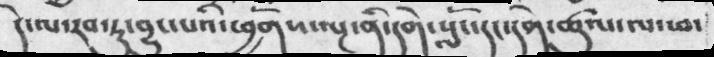དེ་ལ་རབ་ཏུ་བྱུང་པའི་ཕྱོགས་ལྔ་ནི་དགེ་སློང་དང་དགེ་ཚུལ་ལ་ཕ་
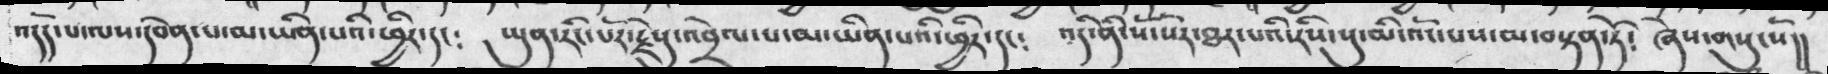འདོད་པ་ལས་དབེན་པ་མ་ཡིན་པའི་ཕྱིར་དང༴   ཡུན་རིང་པོར་རྗེསུ་འབྲེལ་པ་མ་ཡིན་པའི་ཕྱིར་དང༴  འདི་ནི་སོ་སོར་ཐར་པའི་རིས་སུ་མི་འོང་པས་མ་བསྟན་ཏོ༴  ཞེས་གསུངསོ།།
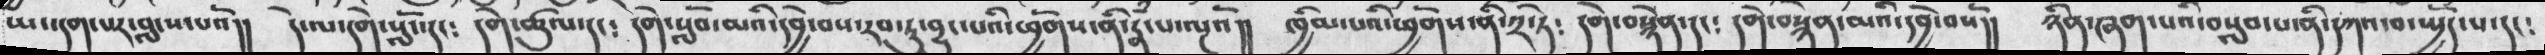ཡང་དག་པར་བླངས་པའོ།། དེ་ལ་དགེ་སློང་དང༴ དགེ་ཚུལ་དང༴ དགེ་སློབ་མའི་དབྱེ་བས་རབ་ཏུ་བྱུང་པའི་ཕྱོགས་ནི་རྣཾ་པ་ལྔའོ།། ཁྱིམ་པའི་ཕྱོགས་ནི་༢་ཏེ༴ དགེ་བསྙེན་དང༴ དགེ་བསྙེན་མའི་དབྱེ་བསོ།། ཉིན་ཞག་པའི་བསླབ་པ་ནི་དཀའ་བ་སྤྱོད་པ་དང༴
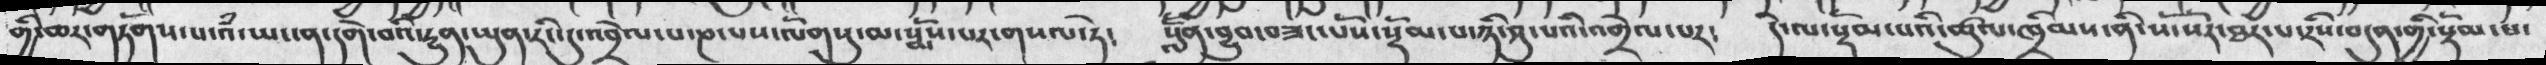གྱི་ཆར་གཏོགས་པ་འཾ་ཡང་ན་དགེ་བའི་རྱུན་ཡུན་རིང་དུ་འབྲེལ་པ་ཎ་པས་ལོགསུ་མ་སྨོས་པར་གསལ་ཏེ༴ སླཽན་བྱུབ་བཟང་པོས་སྡོམ་པ་ཉི་ཤུ་པའི་འགྲེལ་པར༴ དེ་ལསྡོམ་པའི་ཚུལ་ཁྲིམས་ནི་སོ་སོར་ཐར་པ་རིས་བདུན་གྱི་སྡོམ་པ་
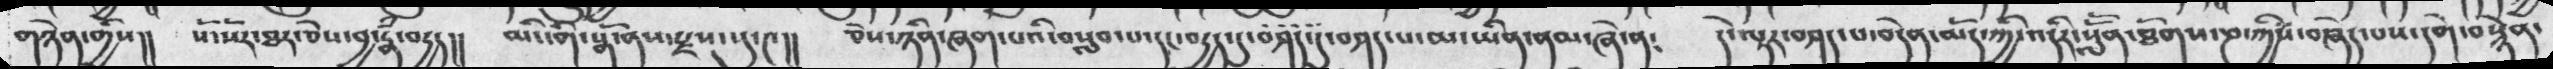གཉེན་གྱིས།། སོ་སོར་ཐར་ཅེས་བྱ་རྣཾ་བདྱད།། མིང་གི་སྒོ་ནས་སྫས་སུ་༤།། ཅེས་ཉིན་ཞག་པའི་བསླབ་པ་དང་བདྱད་དུ་བཤད་པ་མ་ཡིན་ནམ་ཞེ་ན༴ དེ་ལྟར་བཤད་པ་བདེན་མོད་ཀྱི་འདིར་སློོན་ཐོགས་ཎ་ཀྱིས་བཞེད་པས་དགེ་བསྙེན་
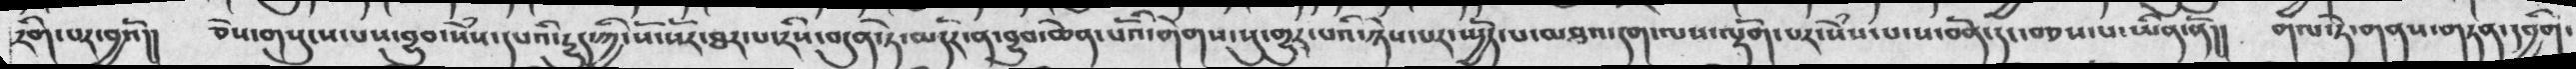རིག་པར་བྱའོ།།  ཅེས་གསུངས་པས་བྱུབ་སེཾས་དཔའི་རྱུད་ཀྱི་སོ་སོར་ཐར་པ་རིས་བདུན་ཏེ་མདོར་ན་བྱུབ་ཆེན་པོའི་གེགས་སུ་གྱུར་པའི་ཉེས་པར་སྤྱོད་པ་མཐའ་དག་ལས་ལྡོག་པར་སེཾས་པ་ས་བོན་དང་བཅས་པ་ཡིན་ནོ།།  གལ་ཏེ་གནས་གཏན་དབྱིག་
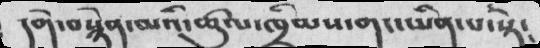དགེ་བསྙེན་མའི་ཚུལ་ཁྲིམས་གང་ཡིན་པ་སྟེ༴
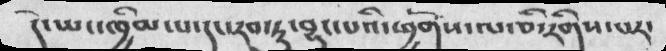དེ་ཡང་ཁྱིམ་པ་དང་རབ་ཏུ་བྱུང་པའི་ཕྱོགས་ལ་ཅི་རིགས་པར་
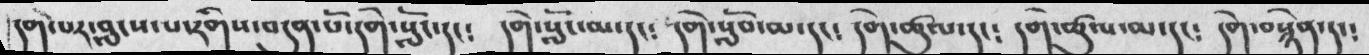དག་པར་བླངས་པ་རིགས་བདུན་པོ་དགེ་སློང་དང༴ དགེ་སློང་མ་དང༴ དགེ་སློབ་མ་དང༴ དགེ་ཚུལ་དང༴ དགེ་ཚུལ་མ་དང༴ དགེ་བསྙེན་དང༴
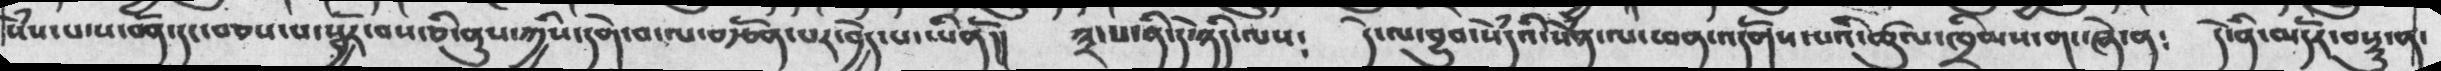སེཾས་པ་ས་བོན་དང་བཅས་པ་སྦྱོར་བས་ཅི་ནུས་ཀྱིས་དགེ་བ་ལ་བརྩོན་པར་བྱེད་པ་ཡིནོ།། ༣་པ་ནི་དེ་ཉིད་ལས༴ དེ་ལ་བྱུབ་སེཾདའི་སེཾན་ལ་ཕན་འདོགས་པའི་ཚུལ་ཁྲིམས་གང་ཞེ་ན༴ དེ་ནི་མདོར་བསྡུ་ན་
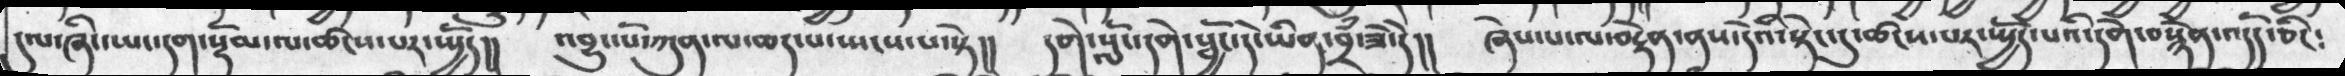དལ་ཞིང་ཡང་དག་སྡོམ་ལ་ཚངས་པར་སྤྱོད།།  འབྱུང་པོ་ཀུན་ལ་ཆད་པ་སྤངས་པ་སྟེ།།  དགེ་སློང་དགེ་སྦྱོང་དེ་ཡིན་བྲཾ་ཟེ་དེ།།  ཞེས་པ་ལ་བརྟེན་ནས་དེའི་སྟེང་དུ་ཚངས་པར་སྤྱོད་པའི་དགེ་བསྙེན་འདོད་ཅིང༴
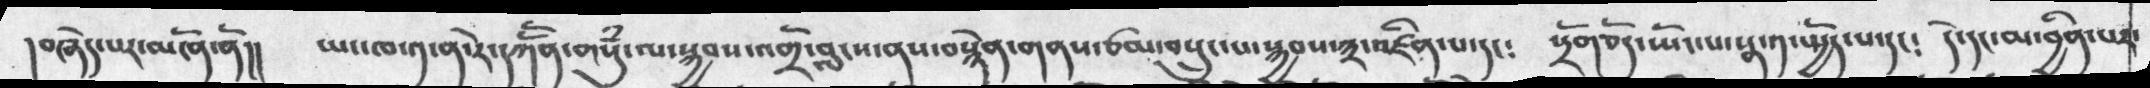།བཞེད་པར་མངོན་ནོ།།  ཡང་ཁ་༡་ན་རེ་དཀོོན་གསུཾ་ལ་སྐྱབས་འགྲོ་བླངས་ནས་བསྙེན་གནས་ཙམ་བསྲུང་པ་སྐྱབས་༣་འཛིན་པ་དང༴  སྲོགཅོད་སྤོང་པ་སྣ་༡་སྤྱོད་པ་དང༴   དེ་དང་མ་བྱིན་པར་
